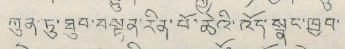ཀུན་ཏུ་ཐུབ་བསྟན་རིན་པོ་ཆེའི་འོད་སྒྲུང་ཁྱབ་
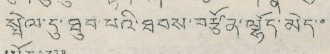སྤེལ་དུ་ཐུབ་པའི་ཐབས་བརྩོན་ལྷོད་མེད་་
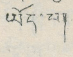ཡོད་པ།
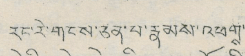རང་རེ་གངས་ཅན་པ་རྣམས་འཕགྶ་
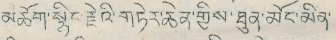མཆོག་སྙིང་རྗེའི་གཏེར་ཆེན་གྱིས་ཐུན་མོང་མིན་
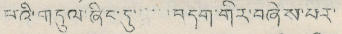པའི་གདུལ་ཞིང་དུ་ བདག་གིར་བཞེས་པར་
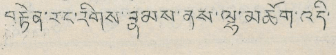བརྟེན་རང་རིགས་རྣམས་ནས་ལྷ་མཆོག་འདི་
